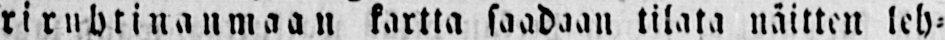riruhtinanmaan kartta saadaan tilata näitten leh-
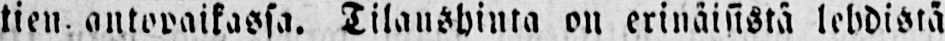tien antopaikassa. Tilaushinta on erinäisistä lehdistä
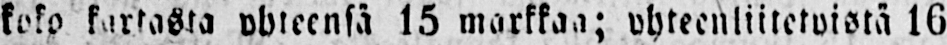koko kartasta yhteensä 15 markkaa; yhteenliitetyistä 16
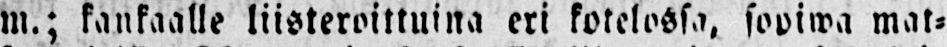m.; kankaalle liisteroittuina eri kotelossa, sopiwa mat-
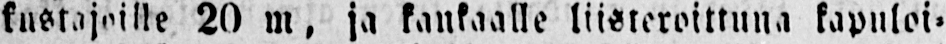kustajoille 20 m, ja kankaalle liisteroittuna kapuloi-
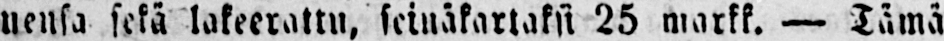nensa sekä lakeerattn, seinäkartaksi 25 markk. — Tämä
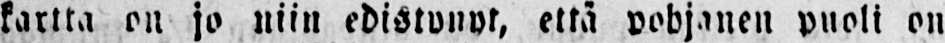kartta on jo niin edistynyt, että pohjanen puoli on
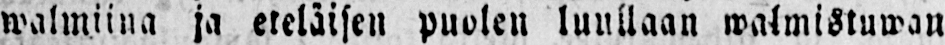walmiina ja eteläisen puolen luullaan walmistuwan
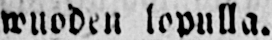wuoden lopulla.
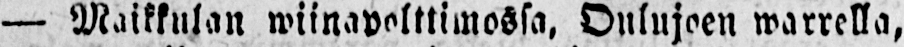— Maikkulan wiinapolttimossa, Oulujoen warrella,
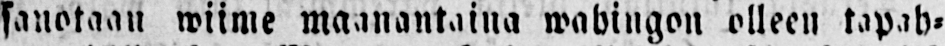sanotaan wiime maanantaina wahingon olleen tapah-
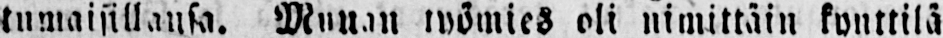tumaisillansa. Munan työmies oli nimittäin kynttilä
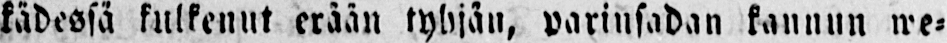kädessä kulkenut erään tyhjän, pariusadan kannun we-
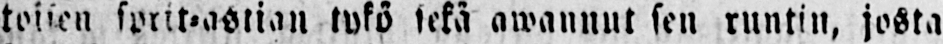toisen sprit-astian tykö sekä awannut sen ruutin, josta
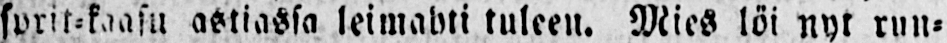sprit-kaasu astiassa leimahti tuleen. Mies löi nyt run-
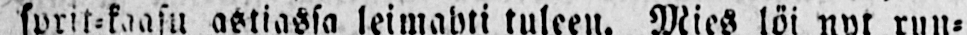tin kiini, sillä tawoin walkiaa sammuttaaksensa, mutta
